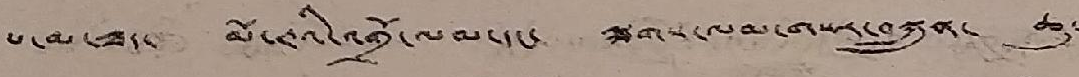པ་མ་ཟད་ མོ་ཊྲའི་འགྲོ་ལམ་དང་ ལྕགས་ལམ་གསར་བསྐྲུན་ ཆུ་
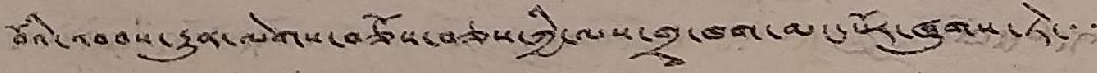བོའི་འབབས་རྒྱུན་ལེགས་བཅོས་བཅས་ཀྱི་ལས་གྲྭ་ཁག་མང་པོར་ཞུགས་ཏེ་་་
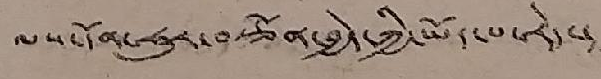ལས་དོན་ཧུར་བརྩོན་བྱེད་ཀྱི་ཡོད་པ་རེད་།
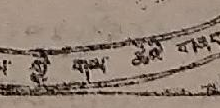ཕྱི་རྒྱལ་གྱི་གལ་ཆེའི་གནད་དོན་
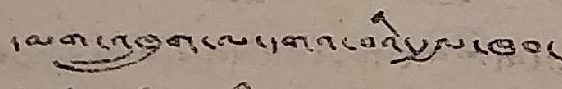དམག་འཁྲུག་ལ་དགའ་བའི་རྒྱལ་ཁབ་
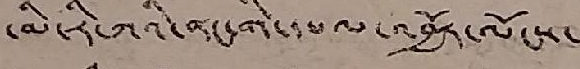་མི་རི་ཀའི་ནང་གི་དཔལ་འབྱོར་ལོངས་
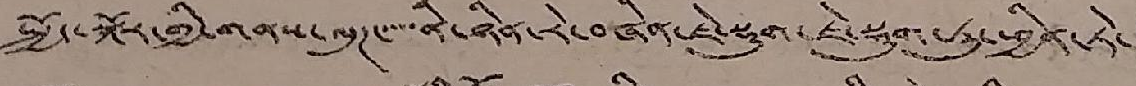སྤྱོད་སྐོར་གྱི་གནས་ལུཊ་་་་་ནི་ཉིན་རེ་བཞིན་ཇེ་སྡུག་ཇེ་སྡུག་ཏུ་ཕྱིན་ཏེ་
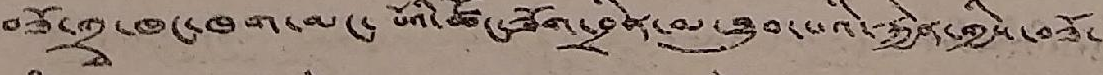བཟོ་གྲྭ་ཁང་ཁག་མང་པོའི་ཚོང་ཟོག་བྲིན་མ་ཐུབ་པའི་རྐྱེན་གྱིས་བཟོ་
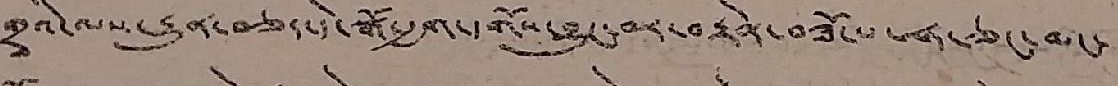གྲྭའི་ལས་རྒྱུན་བཅད་དེ་སྒོ་རྒྱག་དགོས་བྱུང་བར་བརྟེན་བཟོ་པ་ཧ་ཅང་མང་
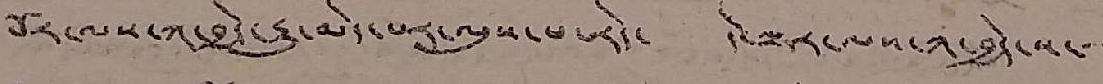པོར་ལས་ཀ་བྱེད་རྒྱུ་མེད་པར་ལུས་པ་རེད་ དེ་ལྟར་ལས་ཀ་བྱེད་ས་་་
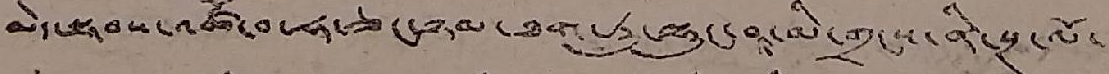མེདསཏབས་འཚོ་བ་ཧ་ཅང་ཉམ་ཐག་ཏུ་ལྷུང་བ་མི་གྲངས་ནི་སྔ་ལོ་
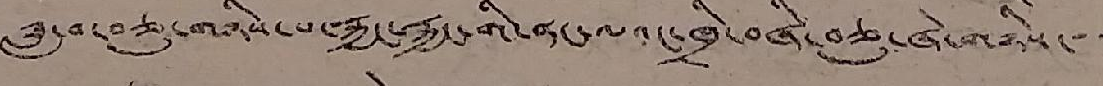ཟླ་བ་བཅུ་གཉིས་པ་རྐྱང་རྐྱང་གི་ནང་ལའང་ཁྲི་བཞི་བཅུ་ཞེ་གཉིས་་་
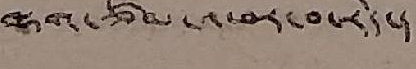ལྷག་ཙམ་འཕར་བ་རེད་།
